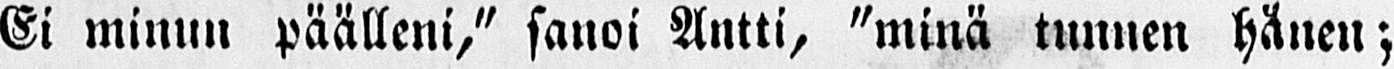Ei minun päälleni," sanoi Antti, "minä tunnen hänen;
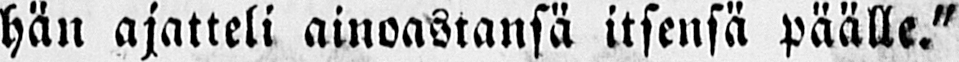hän ajatteli ainoastansä itsensä päälle."
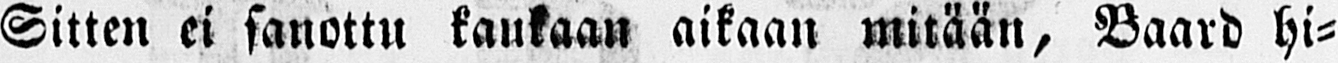Sitten ei sanottu kaukaan aikaan mitään, Baard hi-
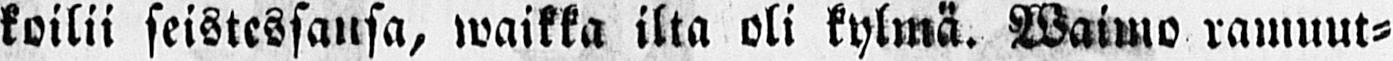koilii seistessansa, waikka ilta oli kylmä. Waimo ramuut-
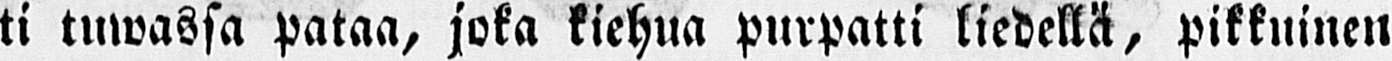ti tuwassa pataa, joka kiehua purpatti liedellä, pikkuinen
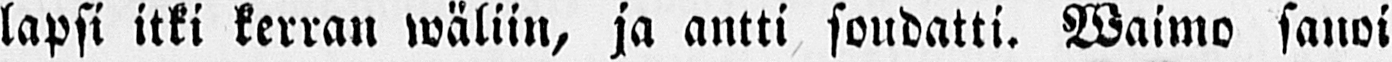lapsi itki kerran wäliin, ja antti soudatti. Waimo sanoi
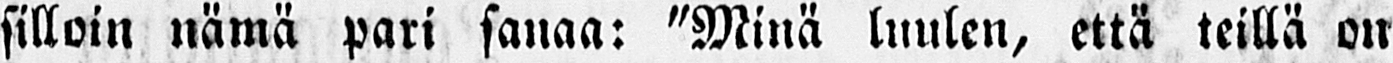silloin nämä pari sanaa: "Minä luulen, että teillä on
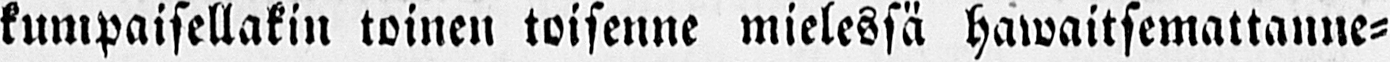kumpaisellakin toinen toisenne mielessä hawaitsemattanne-
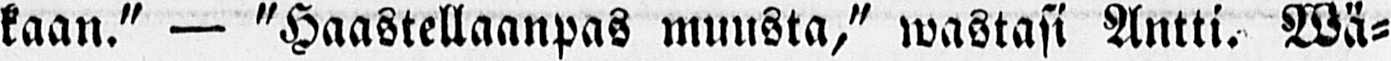kaan." — "Haastellaanpas muusta," wastasi Antti. Wä-
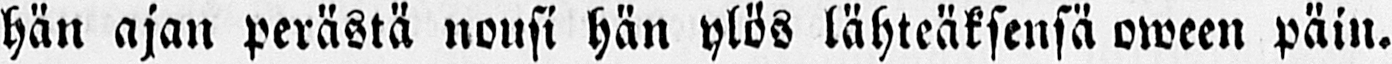hän ajan perästä nousi hän ylös lähteäksensä oween päin.
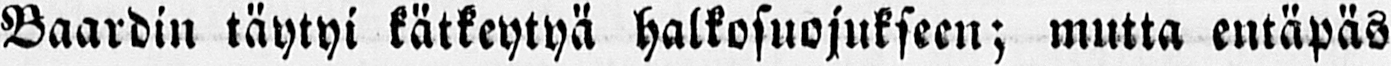Baardin täytyi kätkeytyä halkosuojukseen; mutta entäpäs
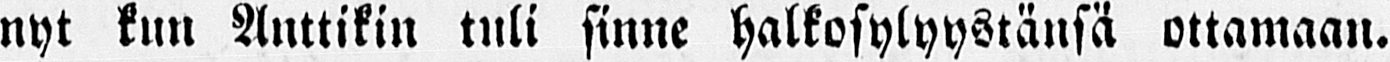nyt kun Anttikin tuli sinne halkosylyystänsä ottamaan.
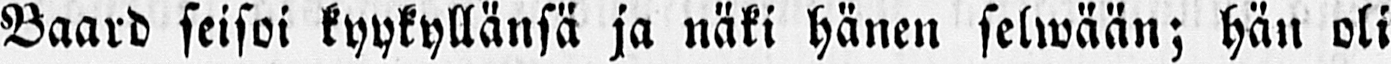Baard seisoi kyykyllänsä ja näki hänen selwään; hän oli
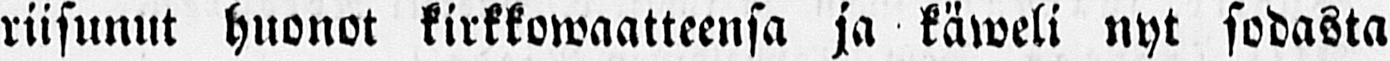riisunut huonot kirkkowaatteensa ja käweli nyt sodasta
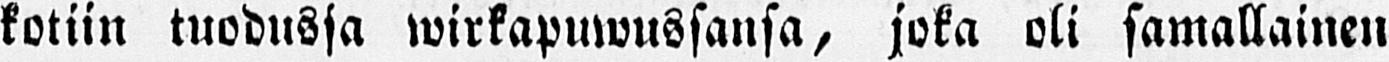kotiin tuodussa wirkapuwussansa, joka oli samallainen
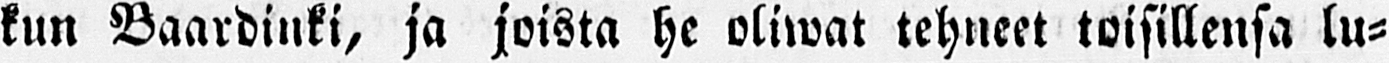kun Baardinki, ja joista he oliwat tehneet toisillensa lu-
